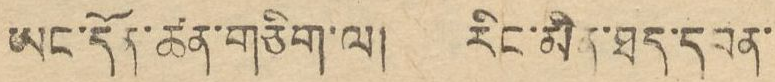ཡང་དོན་ཚན་གཅིག་ལ། རིང་མིན་ཐད་དབན་
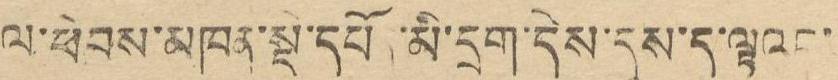ལ་ཕེབས་མཁན་སྡེ་དཔོན་མི་དྲག་དེས་དུས་ད་ལྟའང་
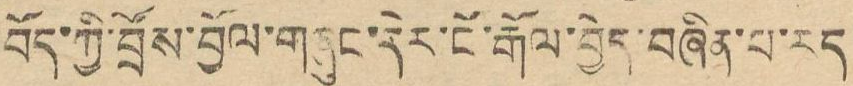བོད་ཀྱི་བྲོས་བྱོལ་གཞུང་དེར་ངོ་རྒོལ་བྱེད་བཞིན་པ་རེད་
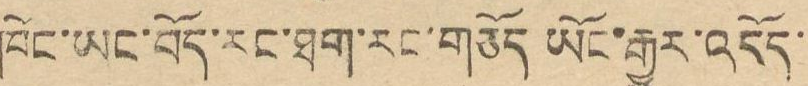ཁོང་ཡང་བོད་རང་ཐག་རང་གཅོད་ཡོང་རྒྱུར་འདོད་
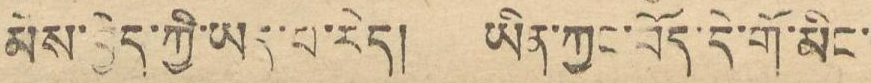མེས་བྱེད་ཀྱི་ཡོད་པ་རེད། ཡིན་ཀྱང་བོད་དེ་གོ་མིང་
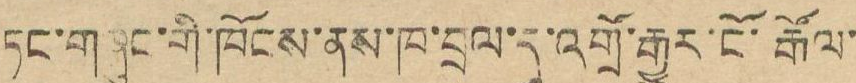ཏང་གཞུང་གི་ཁོངས་ནས་ཁ་བྲལ་དུ་འགྲོ་རྒྱུར་ངོ་རྒོལ་
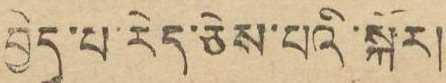བྱེད་པ་རེད་ཅེས་པའི་སྐོར།
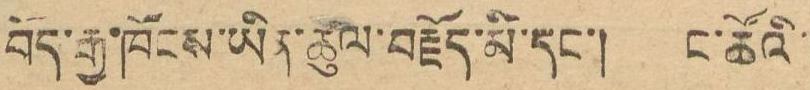བོད་རྒྱ་ཁོངས་ཡིན་ཚུལ་བརྗོད་མི་དང་། ང་ཚོའི་
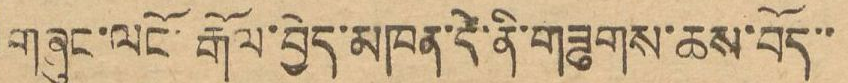གཞུང་ལངོ་རྒོལ་བྱེད་མཁན་དེ་ནི་གཟུགས་ཆས་བོད་་
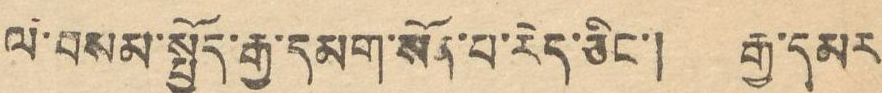ལ་བསམ་སྤྱོད་རྒྱ་དམག་སོན་པ་རེད་ཅིང་། རྒྱ་དམར
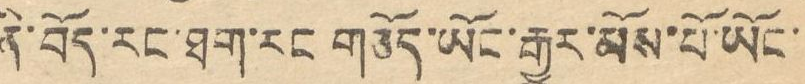ནི་བོད་རང་ཐག་རང གཅོད་ཡོང་རྒྱུར་མོས་པོ་ཡོང་
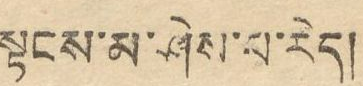སྟངས་མ་ཤེས་པ་རེད།
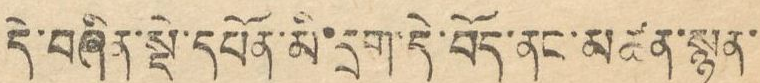དེ་བཞིན་སྡེ་དཔོན་མི་དྲག་དེ་བོད་ནང་མཚན་སྙན་
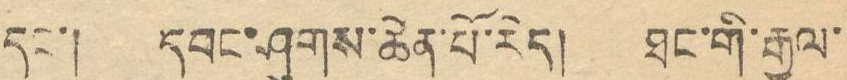དང་། དབང་ཤུགས་ཆེན་པོ་རེད། ཐང་གི་རྒྱལ་
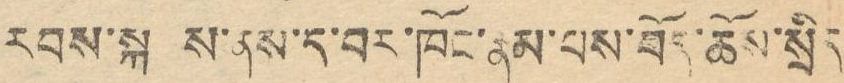རབས་སྐབས་ནས་ད་བར་ཁོང་རྣམ་པས་བོད་ཆོས་སྲིད
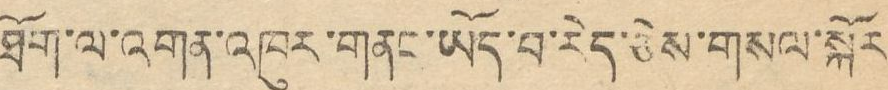ཐོག་ལ་འགན་འཁུར་གནང་ཡོད་པ་རེད་ཅེས་གསལ་སྐོར
